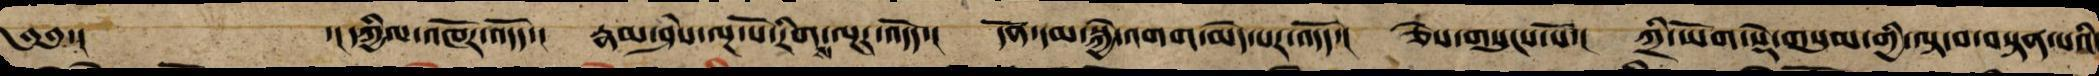༄༅་།  ་།དཀྱིལ་འཁོར་འདོད་། རྣམ་ཤེས་ལྔ་པོ་རིགས་ལྔར་འདོད་། དོན་དམ་སྐྱེ་འགག་མེད་པར་འདོད་། ཅེས་གསུངས་སོ་། ཀྲི་ཡོག་སྡེ་གསུམ་གྱི་ལྟ་བ་བསྟན་པའི་
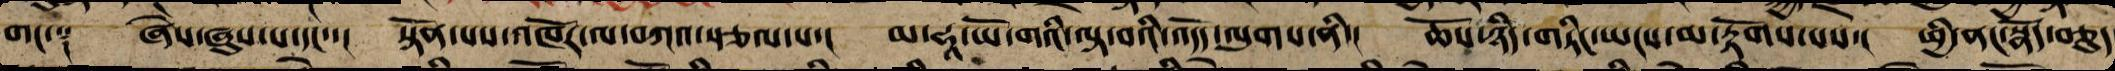གང་༑ ཞེས་ཞུས་པ་དང་་། སྟོན་པས་འཁོར་ལ་བཀའ་སྩལ་པ་། མ་ཧཱ་ཡོ་གའི་ལྟ་བའི་འདོད་ལུགས་ནི་། ཆོས་ཉིད་གཏིང་ཡངས་མ་རྟོགས་པས་། ཕྱི་ནང་སྣོད་བཅུད་
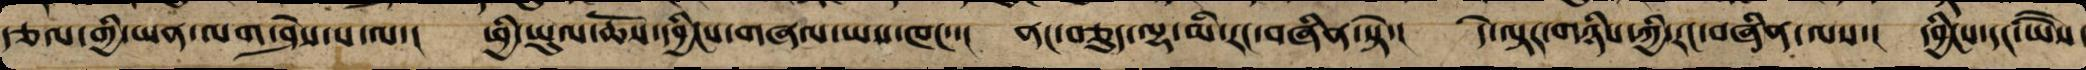རྩལ་གྱི་ཡན་ལག་ཤེས་པ་ལ་། ཕྱི་ཡུལ་ཆོས་དབྱིངས་གཞལ་ཡས་ཁང་་། ནང་བཅུད་ལྷ་ཡི་རང་བཞིན་ཏེ་། དེ་ལྟར་གཉིས་ཀྱི་རང་བཞིན་ལས་། དབྱིངས་དང་ཡཻས་
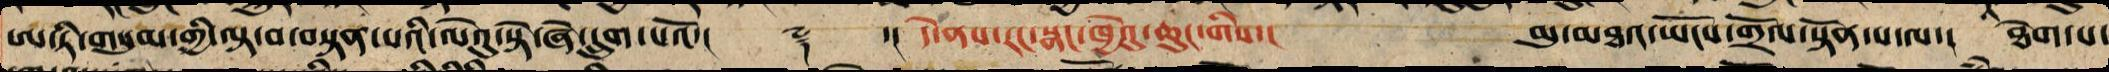ཨ་ཏི་གསུམ་གྱི་ལྟ་བ་བསྟན་པའི་ལེའུ་སྟེ་ཞེ་དྲུག་པའོ་།། ༈ ་།། དེ་ནས་རང་སྣང་ཁྱེའུ་ཆུང་གིས་། མུ་མཐའ་ཡོངས་གྲོལ་སྟོན་པ་ལ་། ཐེག་པ་
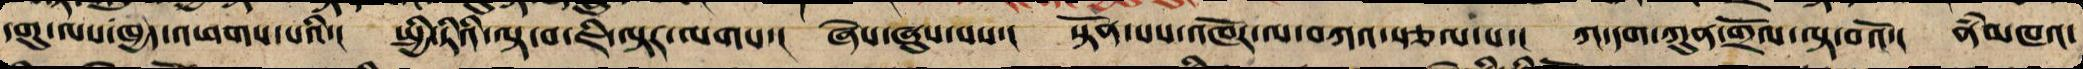དགུ་ལས་ཁྱད་འཕགས་པའི་། སྤྱི་ཏིའི་ལྟ་བ་ཇི་ལྟར་ལགས་། ཞེས་ཞུས་པས་། སྟོན་པས་འཁོར་ལ་བཀའ་སྩལ་པ་། ཀ་དག་ཀུན་གྲོལ་བལྟ་བའོ་། ནཾམཁའ་
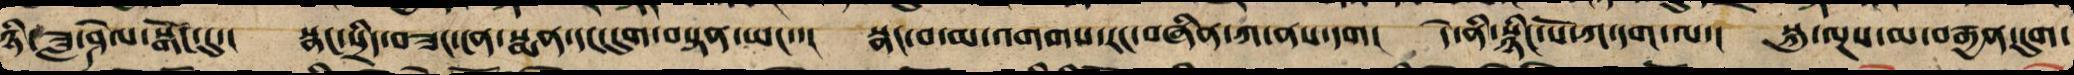ཉི་ཟླ་ཤེལ་སྒོང་དུ་། སྣང་སྲིད་བཟང་ངན་སྨན་དང་དུག་བསྟན་ཡང་་། སྣང་བ་མ་འགགས་རང་བཞིན་ཀ་ནས་དག། དེ་བཞིན་སྙིང་པོ་ཀ་དག་ལ་། སྐུ་ལྔས་མ་བརྒྱན་དུག་
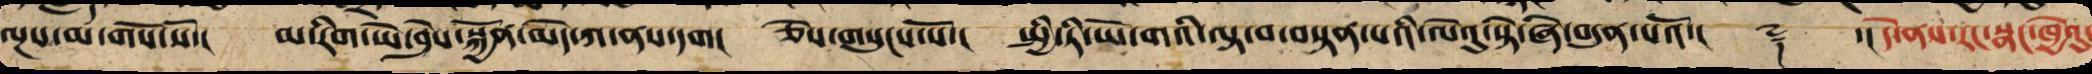ལྔས་མ་གོས་སོ་། མ་རིག་ཡེ་ཤེས་སྐྱོན་ཡོན་ཀ་ནས་དག། ཅེས་གསུངས་སོ་། སྤྱི་ཏི་ཡོ་གའི་ལྟ་བ་བསྟན་པའི་ལེའུ་སྟེ་ཞེ་བདུན་པའོ་།། ༈ ་།། དེ་ནས་རང་སྣང་ཁྱེའུ་
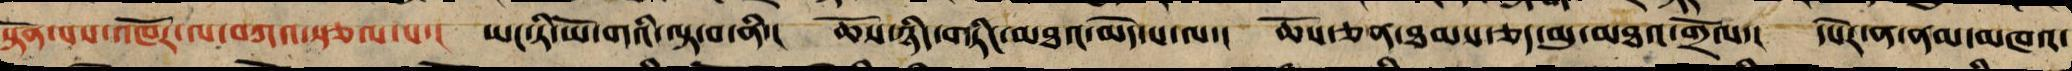སྟོན་པས་འཁོར་ལ་བཀའ་སྩལ་པ་། ཡང་ཏི་ཡོ་གའི་ལྟ་བ་ནི་། ཆོས་ཉིད་གཏིང་མཐའ་མེད་པ་ལ་། ཆོས་ཅན་ཐམས་ཅད་མུ་མཐའ་གྲོལ་། དཔེར་ན་ནམ་མཁའ་
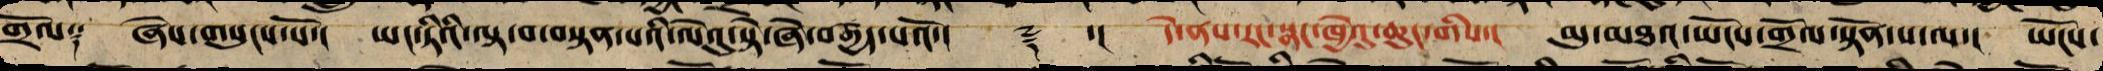གྲོལ༑ ཞེས་གསུངས་སོ་། ཡང་ཏིའི་ལྟ་བ་བསྟན་པའི་ལེའུ་སྟེ་ཞེ་བརྒྱད་པའོ་།། ༈ ་།། དེ་ནས་རང་སྣང་ཁྱེའུ་ཆུང་གིས་། མུ་མཐའ་ཡོངས་གྲོལ་སྟོན་པ་ལ་། ཡོངས་
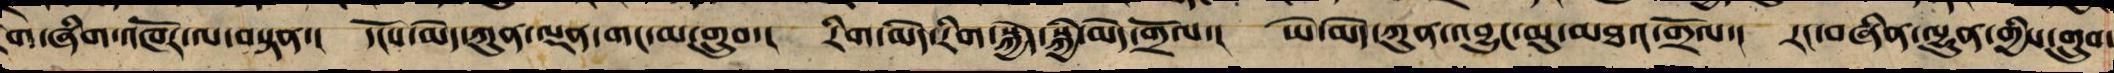རེག་ཞིག་འཁོར་ལ་བསྟན་། དངོས་མེད་ཀུན་ལྡན་གང་མ་གྲུབ་། རིག་མེད་རིག་སྐྱེད་སྐྱེ་མེད་གྲོལ་། ཡེ་མེད་ཀུན་འབྱུང་མུ་མཐའ་གྲོལ་། རང་བཞིན་ལྷུན་གྱིས་གྲུབ་
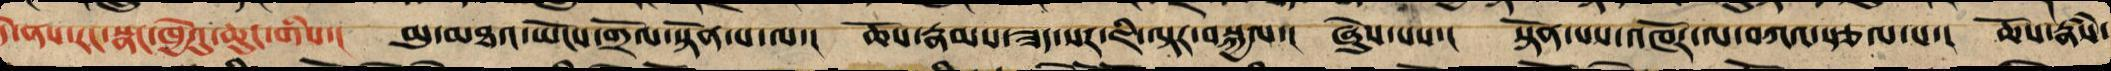དེ་ནས་རང་སྣང་ཁྱེའུ་ཆུང་གིས་། མུ་མཐའ་ཡོངས་གྲོལ་སྟོན་པ་ལ་། ཆོས་རྣམས་ཟད་སར་ཇི་ལྟར་བསྐྱལ་། ཞེུས་པས་། སྟོན་པས་འཁོར་ལ་བཀའ་སྩལ་པ་། ཆོས་རྣཾས་
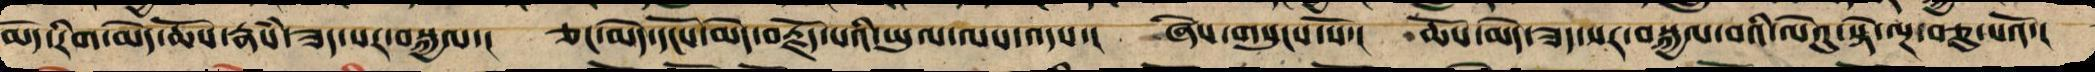མེད་རིག་མེད་ཆོས་རྣཾས་ཟད་སར་བསྐྱལ་། ཅང་མེད་དངོས་མེད་བརྗོད་པའི་ཡུལ་ལས་འདས་། ཞེས་གསུངས་སོ་། ཆོས་མེད་ཟད་སར་བསྐྱལ་བའི་ལེའུ་སྟེ་ལྔ་བཅུ་པའོ་།།
